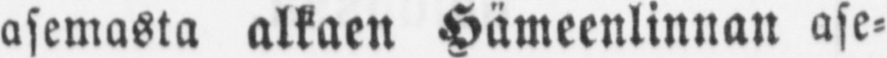asemasta alkaen Hämeenlinnan ase-
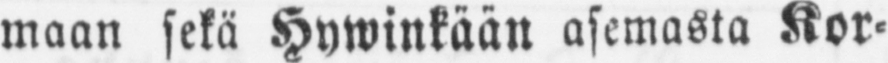maan sekä Hywinkään asemasta Kol-
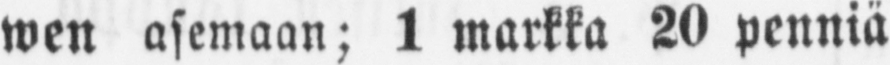wen asemaan; 1 markka 20 penniä
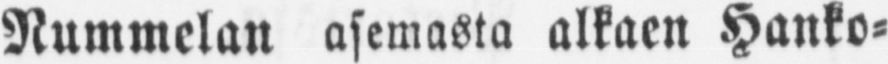Nummelan asemasta alkaen Hanko-
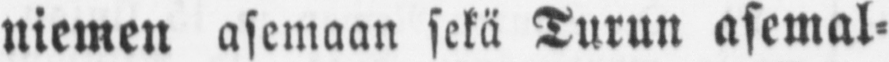niemen asemaan sekä Turun asemal-
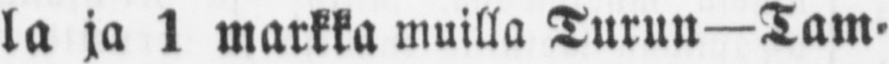la ja 1 markka muilla Turun—Tam-
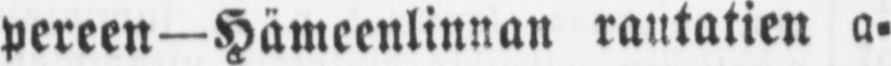pereen—Hämeenlinnan rautatien a-
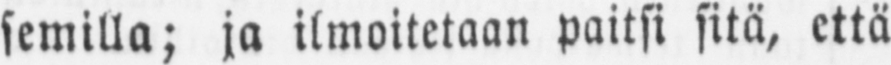semilla; ja ilmoitetaan paitsi sitä, että
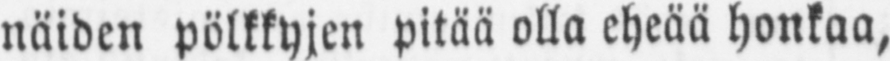näiden pölkkyjen pitää olla eheää honkaa,
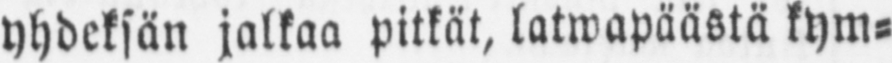yhdeksän jalkaa pitkät, latwapäästä kym-
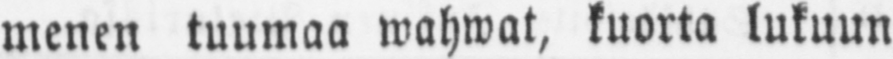menen tuumaa wahwat, kuorta lukuun
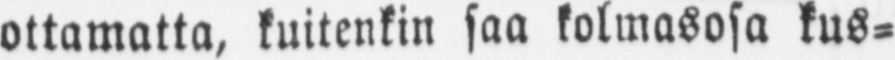ottamatta, kuitenkin saa kolmasosa kus-
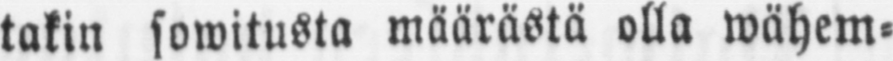takin sowitusta määrästä olla wähem-
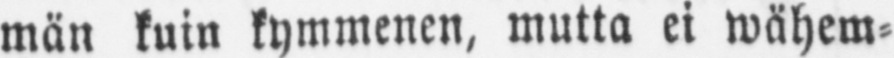män kuin kymmenen, mutta ei wähem-
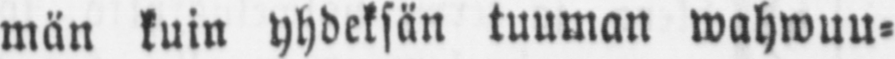män kuin yhdeksän tuuman wahwuu-
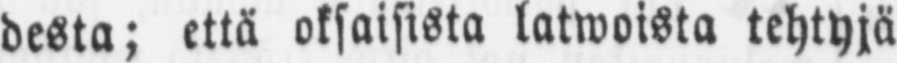desta; että oksaisista latwoista tehtyjä
